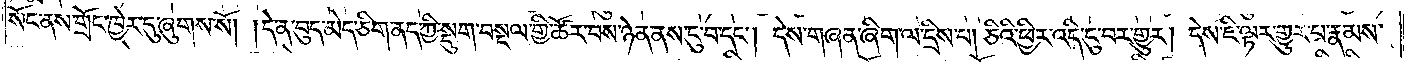སོང་ནས་གྲོང་ཁྱེར་དུ་ཞུགས་སོ། །དེ་ན་བུད་མེད་ཅིག་ནད་ཀྱི་སྡུག་བསྔལ་གྱི་ཚོར་བས་ཉེན་ནས་ངུ་བ་དང༌། དེས་གཞན་ཞིག་ལ་དྲིས་པ། ཅིའི་ཕྱིར་འདི་ངུ་བར་གྱུར། དེས་ཇི་ལྟར་གྱུར་པ་རྣམས་
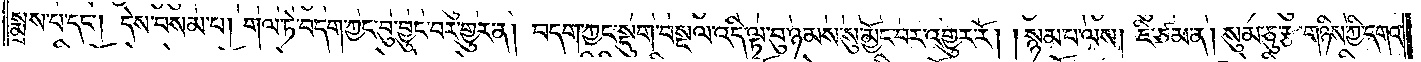སྨྲས་པ་དང༌། དེས་བསམ་པ། གལ་ཏེ་བདག་ཀྱང་བུ་བྱུང་བར་གྱུར་ན། བདག་ཀྱང་སྡུག་བསྔལ་འདི་ལྟ་བུ་ཉམས་སུ་མྱོང་བར་འགྱུར་རོ། །སྙམ་པ་ལས། ཇི་ཙམ་ན། སུམ་ཅུ་རྩ་གཉིས་ཀྱི་དགའ་
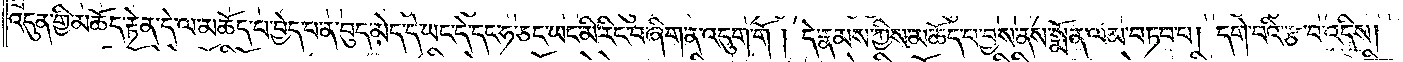འདུན་གྱི་མཆོད་རྟེན་དེ་ལ་མཆོད་པ་བྱེད་པ་ན་བུད་མེད་དེ་ཡང་དེ་དང་ཧ་ཅང་ཡང་མི་རིང་བ་ཞིག་ན་འདུག་གོ །དེ་རྣམས་ཀྱིས་མཆོད་པ་བྱས་ནས་སྨོན་ལམ་བཏབ་པ། དགེ་བའི་རྩ་བ་འདིས།
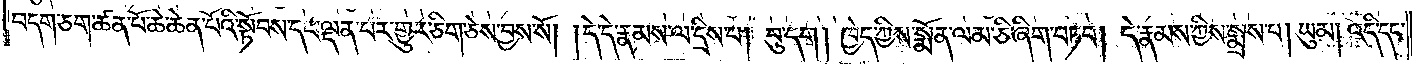བདག་ཅག་ཚན་པོ་ཆེ་ཆེན་པོའི་སྟོབས་དང་ལྡན་པར་གྱུར་ཅིག་ཅེས་བྱས་སོ། །དེ་དེ་རྣམས་ལ་དྲིས་པ། བུ་དག །ཁྱེད་ཀྱིས་སྨོན་ལམ་ཅི་ཞིག་བཏབ། དེ་རྣམས་ཀྱིས་སྨྲས་པ། ཡུམ། འདི་དང་
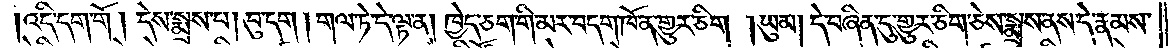འདི་དག་གོ །དེས་སྨྲས་པ། བུ་དག །གལ་ཏེ་དེ་ལྟར་ན། ཁྱེད་ཅག་གི་མར་བདག་ཁོ་ན་གྱུར་ཅིག །ཡུམ། དེ་བཞིན་དུ་གྱུར་ཅིག་ཅེས་སྨྲས་ནས་དེ་རྣམས་
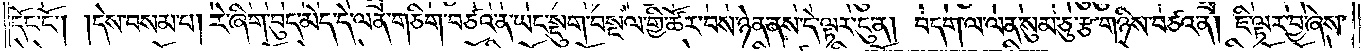དོང་ངོ༌། །དེས་བསམ་པ། རེ་ཞིག་བུད་མེད་དེ་ལན་གཅིག་བཙའ་ན་ཡང་སྡུག་བསྔལ་གྱི་ཚོར་བས་ཉེན་ནས་དེ་ལྟར་ངུ་ན། བདག་ལ་ལན་སུམ་ཅུ་རྩ་གཉིས་བཙའ་ན། ཇི་ལྟར་བྱ་ཞེས་
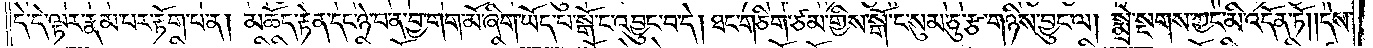དེ་དེ་ལྟར་རྣམ་པར་རྟོག་པ་ན། མཆོད་རྟེན་དང་ཉེ་བ་ན་བྱ་གག་མོ་ཞིག་ཡོད་པ་སྒོ་ང་འབྱུང་བ་དེ། ཐང་གཅིག་ཙམ་གྱིས་སྒོ་ང་སུམ་ཅུ་རྩ་གཉིས་བྱུང་ལ། སྨྲེ་སྔགས་ཀྱང་མི་འདོན་ཏོ། །དེས་
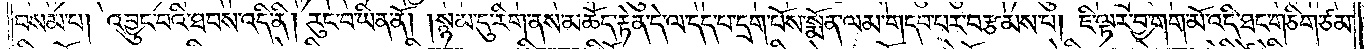བསམ་པ། འབྱུང་བའི་ཐབས་འདི་ནི། རུང་བ་ཡིན་ནོ། །སྙམ་དུ་རིག་ནས་མཆོད་རྟེན་དེ་ལ་དད་པ་དྲག་པོས་སྨོན་ལམ་གདབ་པར་བརྩམས་པ། ཇི་ལྟར་བྱ་གག་མོ་འདི་ཐང་གཅིག་ཙམ་
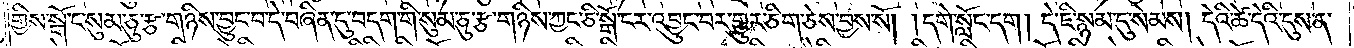གྱིས་སྒོ་ང་སུམ་ཅུ་རྩ་གཉིས་བྱུང་བ་དེ་བཞིན་དུ་བདག་གི་སུམ་ཅུ་རྩ་གཉིས་ཀྱང་ཅི་སྒོ་ངར་འབྱུང་བར་གྱུར་ཅིག་ཅེས་བྱས་སོ། །དགེ་སློང་དག །དེ་ཇི་སྙམ་དུ་སེམས། དེའི་ཚེ་དེའི་དུས་ན་
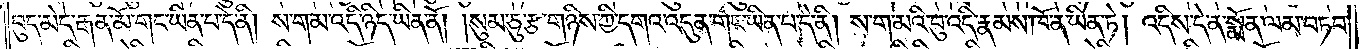བུད་མེད་རྒན་མོ་གང་ཡིན་པ་དེ་ནི། ས་ག་མ་འདི་ཉིད་ཡིན་ནོ། །སུམ་ཅུ་རྩ་གཉིས་ཀྱི་དགའ་འདུན་གང་ཡིན་པ་དེ་ནི། ས་ག་མའི་བུ་འདི་རྣམས་ཁོ་ན་ཡིན་ཏེ། འདིས་དེ་ན་སྨོན་ལམ་བཏབ་
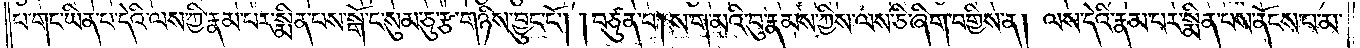པ་གང་ཡིན་པ་དེའི་ལས་ཀྱི་རྣམ་པར་སྨིན་པས་སྒོ་ང་སུམ་ཅུ་རྩ་གཉིས་བྱུང་ངོ༌། །བཙུན་པ། ས་ག་མའི་བུ་རྣམས་ཀྱིས་ལས་ཅི་ཞིག་བགྱིས་ན། ལས་དེའི་རྣམ་པར་སྨིན་པས་ནོངས་པ་མ་
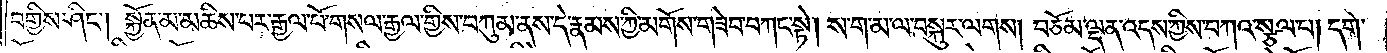བགྱིས་ཤིང༌། སྐྱོན་མ་མཆིས་པར་རྒྱལ་པོ་གསལ་རྒྱལ་གྱིས་བཀུམ་ནས་དེ་རྣམས་ཀྱི་མགོས་གཟེབ་བཀང་སྟེ། ས་ག་མ་ལ་བསྐུར་ལགས། བཅོམ་ལྡན་འདས་ཀྱིས་བཀའ་སྩལ་པ། དགེ་
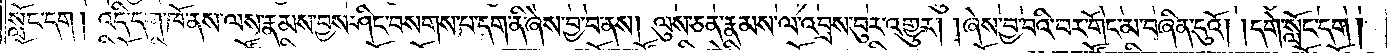སློང་དག །འདི་དག་ཁོ་ནས་ལས་རྣམས་བྱས་ཤིང་བསགས་པ་དག་ནི་ཞེས་བྱ་བ་ནས། ལུས་ཅན་རྣམས་ལ་འབྲས་བུར་འགྱུར། །ཞེས་བྱ་བའི་བར་གོང་མ་བཞིན་དུའོ། །དགེ་སློང་དག །
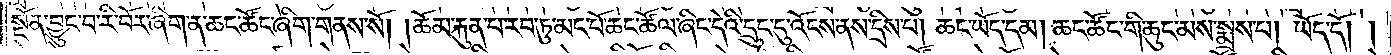སྔོན་བྱུང་བ་རི་བོར་ཞིག་ན་ཆང་ཚོང་ཞིག་གནས་སོ། །ཆོམ་རྐུན་པ་རབ་ཏུ་མང་པོ་ཆང་ཚོལ་ཞིང་དེའི་དྲུང་དུ་འོངས་ནས་དྲིས་པ། ཆང་ཡོད་དམ། ཆང་ཚོང་གི་ཆུང་མས་སྨྲས་པ། ཡོད་དོ། །
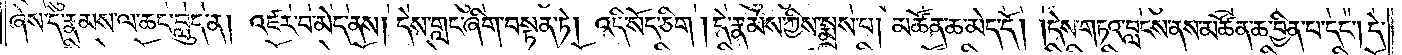ཞེས་དེ་རྣམས་ལ་ཆང་བླུད་ན། འཛར་བ་མེད་ནས། དེས་གླང་ཞིག་བསྟན་ཏེ། འདི་སོད་ཅིག །དེ་རྣམས་ཀྱིས་སྨྲས་པ། མཚོན་ཆ་མེད་དོ། །དེས་གཏའ་བླངས་ནས་མཚོན་ཆ་བྱིན་པ་དང༌། དེ་
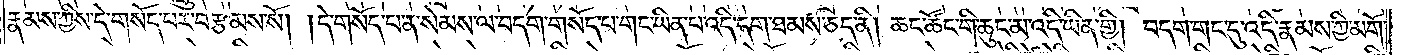རྣམས་ཀྱིས་དེ་གསོད་པར་བརྩམས་སོ། །དེ་གསོད་པ་ན་སེམས་ལ་བདག་གསོད་པ་གང་ཡིན་པ་འདི་དག་ཐམས་ཅད་ནི། ཆང་ཚོང་གི་ཆུང་མ་འདི་ཡིན་གྱི། བདག་གང་དུ་འདི་རྣམས་ཀྱི་མགོ་
